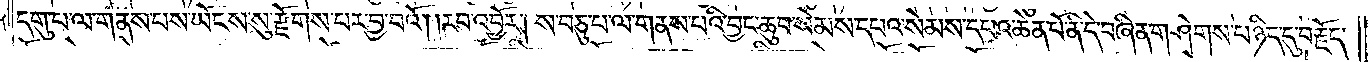དགུ་པ་ལ་གནས་པས་ཡོངས་སུ་རྫོགས་པར་བྱ་བའོ། །རབ་འབྱོར། ས་བཅུ་པ་ལ་གནས་པའི་བྱང་ཆུབ་སེམས་དཔའ་སེམས་དཔའ་ཆེན་པོ་ནི་དེ་བཞིན་གཤེགས་པ་ཉིད་དུ་བརྗོད་
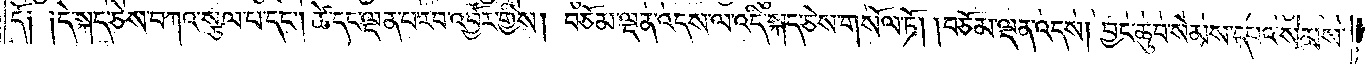དོ༑ ༑དེ་སྐད་ཅེས་བཀའ་སྩལ་པ་དང༌། ཚེ་དང་ལྡན་པ་རབ་འབྱོར་གྱིས། བཅོམ་ལྡན་འདས་ལ་འདི་སྐད་ཅེས་གསོལ་ཏོ། །བཅོམ་ལྡན་འདས། བྱང་ཆུབ་སེམས་དཔའ་སེམས་
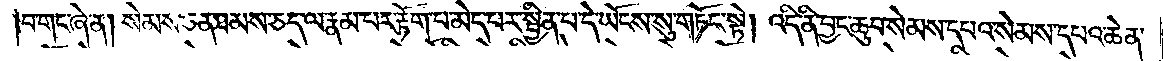བ་གང་ཞེ་ན། སེམས་ཅན་ཐམས་ཅད་ལ་རྣམ་པར་རྟོག་པ་མེད་པར་སྦྱིན་པ་དེ་ཡོངས་སུ་གཏོང་སྟེ། འདི་ནི་བྱང་ཆུབ་སེམས་དཔའ་སེམས་དཔའ་ཆེན་
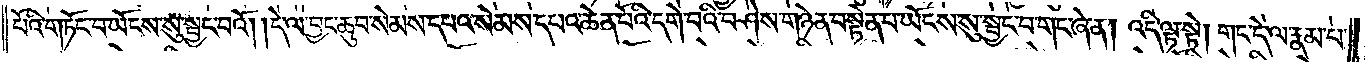པོའི་གཏོང་བ་ཡོངས་སུ་སྦྱང་བའོ། །དེ་ལ་བྱང་ཆུབ་སེམས་དཔའ་སེམས་དཔའ་ཆེན་པོའི་དགེ་བའི་བཤེས་གཉེན་བསྟེན་པ་ཡོངས་སུ་སྦྱང་བ་གང་ཞེ་ན། འདི་ལྟ་སྟེ། གང་དེ་ལ་རྣམ་པ་
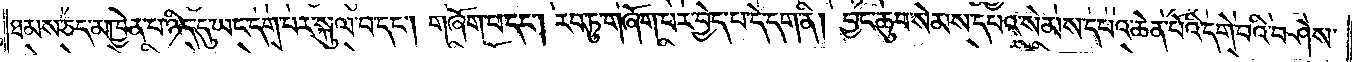ཐམས་ཅད་མཁྱེན་པ་ཉིད་དུ་ཡང་དག་པར་སྐུལ་བ་དང༌། གཞོག་པ་དང༌། རབ་ཏུ་གཞོག་པར་བྱེད་པ་དེ་དག་ནི། བྱང་ཆུབ་སེམས་དཔའ་སེམས་དཔའ་ཆེན་པོའི་དགེ་བའི་བཤེས་
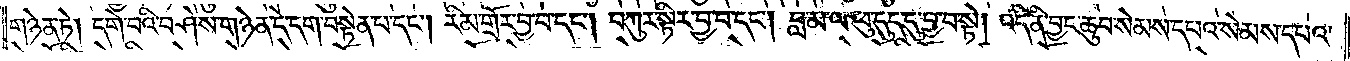གཉེན་ཏེ། དགེ་བའི་བཤེས་གཉེན་དེ་དག་བསྟེན་པ་དང༌། རིམ་གྲོར་བྱ་བ་དང༌། བཀུར་སྟིར་བྱ་བ་དང༌། བླ་མ་ལ་ཕུ་དུང་དུ་བྱ་བ་སྟེ། འདི་ནི་བྱང་ཆུབ་སེམས་དཔའ་སེམས་དཔའ་
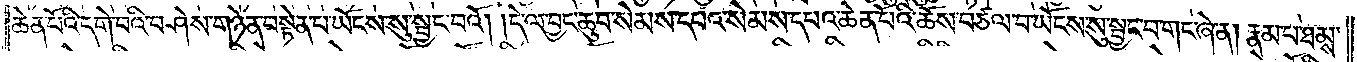ཆེན་པོའི་དགེ་བའི་བཤེས་གཉེན་བསྟེན་པ་ཡོངས་སུ་སྦྱང་བའོ། །དེ་ལ་བྱང་ཆུབ་སེམས་དཔའ་སེམས་དཔའ་ཆེན་པོའི་ཆོས་བཙལ་བ་ཡོངས་སུ་སྦྱང་བ་གང་ཞེ་ན། རྣམ་པ་ཐམས་
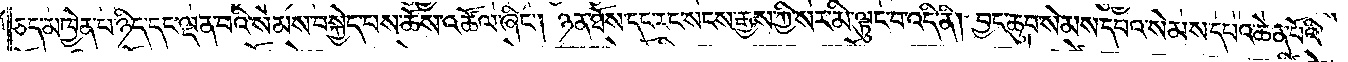ཅད་མཁྱེན་པ་ཉིད་དང་ལྡན་པའི་སེམས་བསྐྱེད་པས་ཆོས་འཚོལ་ཞིང༌། ཉན་ཐོས་དང་རང་སངས་རྒྱས་ཀྱི་སར་མི་ལྷུང་བ་འདི་ནི་བྱང་ཆུབ་སེམས་དཔའ་སེམས་དཔའ་ཆེན་པོའི་
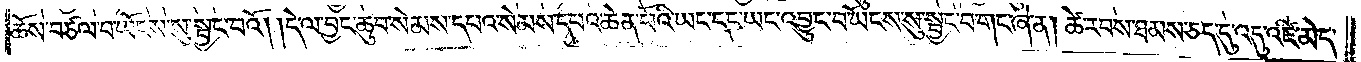ཆོས་བཙལ་བ་ཡོངས་སུ་སྦྱང་བའོ། །དེ་ལ་བྱང་ཆུབ་སེམས་དཔའ་སེམས་དཔའ་ཆེན་པོའི་ཡང་དང་ཡང་འབྱུང་བ་ཡོངས་སུ་སྦྱང་བ་གང་ཞེ་ན། ཚེ་རབས་ཐམས་ཅད་དུ་འདུ་འཛི་མེད་
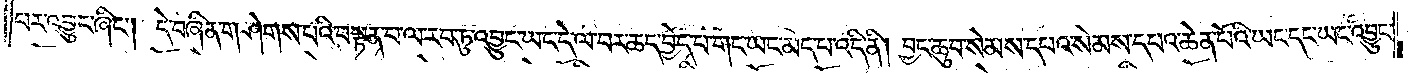པར་འབྱུང་ཞིང༌། དེ་བཞིན་གཤེགས་པའི་བསྟན་པ་ལ་རབ་ཏུ་འབྱུང་ཡང་དེ་ལ་བར་ཆད་བྱེད་པ་གང་ཡང་མེད་པ་འདི་ནི། བྱང་ཆུབ་སེམས་དཔའ་སེམས་དཔའ་ཆེན་པོའི་ཡང་དང་ཡང་འབྱུང་
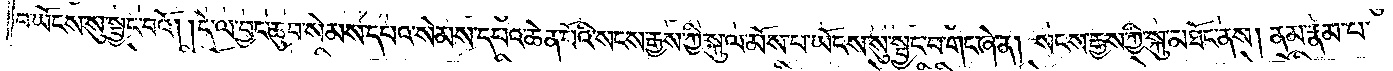བ་ཡོངས་སུ་སྦྱང་བའོ། །དེ་ལ་བྱང་ཆུབ་སེམས་དཔའ་སེམས་དཔའ་ཆེན་པོའི་སངས་རྒྱས་ཀྱི་སྐུ་ལ་མོས་པ་ཡོངས་སུ་སྦྱང་བ་གང་ཞེ་ན། སངས་རྒྱས་ཀྱི་སྐུ་མཐོང་ནས། ནམ་རྣམ་པ་
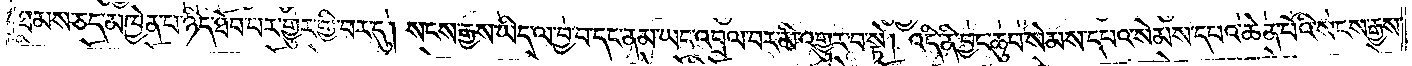ཐམས་ཅད་མཁྱེན་པ་ཉིད་ཐོབ་པར་གྱུར་གྱི་བར་དུ། སངས་རྒྱས་ཡིད་ལ་བྱ་བ་དང་ནམ་ཡང་འབྲལ་བར་མི་འགྱུར་བ་སྟེ། འདི་ནི་བྱང་ཆུབ་སེམས་དཔའ་སེམས་དཔའ་ཆེན་པོའི་སངས་རྒྱས་
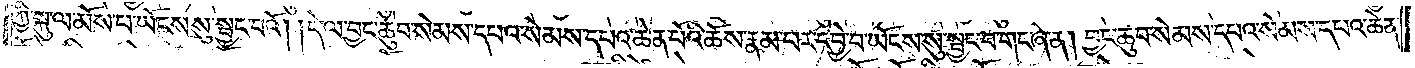ཀྱི་སྐུ་ལ་མོས་པ་ཡོངས་སུ་སྦྱང་བའོ། །དེ་ལ་བྱང་ཆུབ་སེམས་དཔའ་སེམས་དཔའ་ཆེན་པོའི་ཆོས་རྣམ་པར་དབྱེ་བ་ཡོངས་སུ་སྦྱང་བ་གང་ཞེ་ན། བྱང་ཆུབ་སེམས་དཔའ་སེམས་དཔའ་ཆེན་
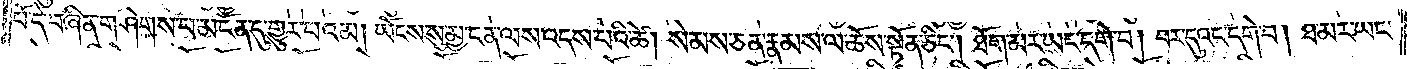པོ་དེ་བཞིན་གཤེགས་པ་མངོན་དུ་གྱུར་པའམ། ཡོངས་སུ་མྱ་ངན་ལས་འདས་པའི་ཚེ། སེམས་ཅན་རྣམས་ལ་ཆོས་སྟོན་ཅིང༌། ཐོག་མར་ཡང་དགེ་བ། བར་དུའང་དགེ་བ། ཐ་མར་ཡང་
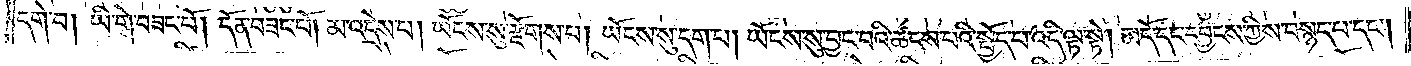དགེ་བ། ཡི་གེ་བཟང་པོ། དོན་བཟང་པོ། མ་འདྲེས་པ། ཡོངས་སུ་རྫོགས་པ། ཡོངས་སུ་དག་པ། ཡོངས་སུ་བྱང་བའི་ཚངས་པའི་སྤྱོད་པ་འདི་ལྟ་སྟེ། མདོ་དང་དབྱངས་ཀྱིས་བསྙད་པ་དང༌།
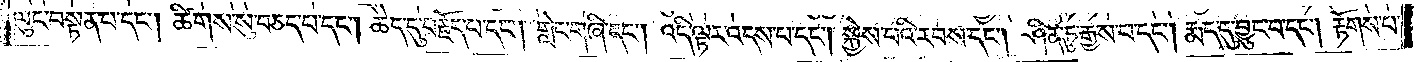ལུང་བསྟན་པ་དང༌། ཚིགས་སུ་བཅད་པ་དང༌། ཆེད་དུ་བརྗོད་པ་དང༌། གླེང་གཞི་དང༌། འདི་ལྟར་འདས་པ་དང༌། སྐྱེས་པའི་རབས་དང༌། ཤིན་ཏུ་རྒྱས་པ་དང༌། རྨད་དུ་བྱུང་བ་དང༌། རྟོགས་པ་
